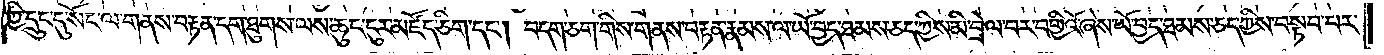ཀྱི་དྲུང་དུ་སོང་ལ་གནས་བརྟན་དག་ཐུགས་ལས་ཆུང་ངུར་མཛོད་ཅིག་དང༌། བདག་ཅག་གིས་གནས་བརྟན་རྣམས་ལ་ཡོ་བྱད་ཐམས་ཅད་ཀྱིས་མི་བྲེལ་བར་བགྱིའོ་ཞེས་ཡོ་བྱད་ཐམས་ཅད་ཀྱིས་བསྟབ་པར་
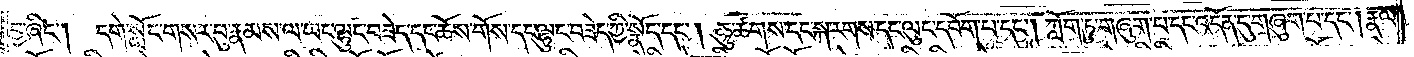བྱ་ཞིང༌། དགེ་སློང་གསར་བུ་རྣམས་ལ་ཡང་ལྷུང་བཟེད་དང་ཆོས་གོས་དང་ལྷུང་བཟེད་ཀྱི་སྣོད་དང༌། ཆུ་ཚགས་དང་སྐ་རགས་དང་ལུང་དབོག་པ་དང༌། ཀློག་ཏུ་གཞུག་པ་དང་འདོན་དུ་གཞུག་པ་དང༌། རྣལ་
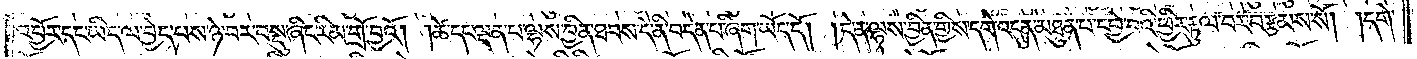འབྱོར་དང་ཡིད་ལ་བྱེད་པས་ཉེ་བར་བསྡུ་ཞིང་རིམ་གྲོ་བྱའོ། །ཚེ་དང་ལྡན་པ་ལྷས་བྱིན་ཐབས་དེ་ནི་བདེན་པ་ཞིག་ཡོད་དོ། །དེ་ན་ལྷས་བྱིན་གྱིས་དགེ་འདུན་མཐུན་པ་དབྱེ་བའི་ཕྱིར་རྟུལ་བར་བརྩམས་སོ། །དགེ་
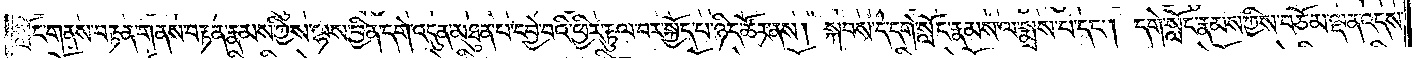སློང་གནས་བརྟན་གནས་བརྟན་རྣམས་ཀྱིས་ལྷས་བྱིན་དགེ་འདུན་མཐུན་པ་དབྱེ་བའི་ཕྱིར་རྟུལ་བར་སྐྱོད་པ་ཉིད་ཚོར་ནས། སྐབས་དེ་དགེ་སློང་རྣམས་ལ་སྨྲས་པ་དང༌། དགེ་སློང་རྣམས་ཀྱིས་བཅོམ་ལྡན་འདས་
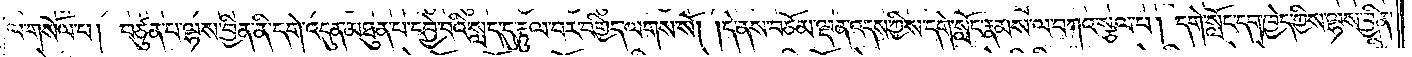ལ་གསོལ་པ། བཙུན་པ་ལྷས་བྱིན་ནི་དགེ་འདུན་མཐུན་པ་དབྱེ་བའི་སླད་དུ་རྟུལ་བར་བགྱིད་ལགས་སོ། །དེ་ནས་བཅོམ་ལྡན་འདས་ཀྱིས་དགེ་སློང་རྣམས་ལ་བཀའ་སྩལ་པ། དགེ་སློང་དག་ཁྱེད་ཀྱིས་ལྷས་བྱིན་
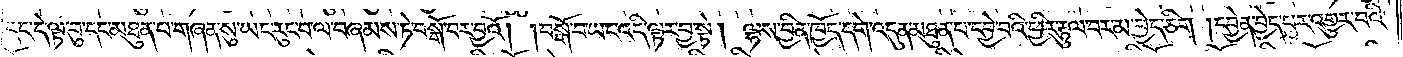དང་དེ་ལྟ་བུ་དང་མཐུན་པ་གཞན་སུ་ཡང་རུང་བ་ལ་བཞམས་ཏེ་བསྒོ་བར་བྱའོ། །བསྒོ་བ་ཡང་འདི་ལྟར་བྱ་སྟེ། ལྷས་བྱིན་ཁྱོད་དགེ་འདུན་མཐུན་པ་དབྱེ་བའི་ཕྱིར་རྟུལ་བར་མ་བྱེད་ཅིག །དབྱེན་བྱེད་པར་འགྱུར་བའི་
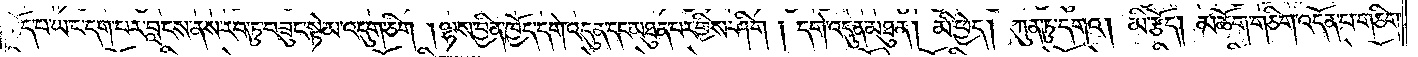རྩོད་པ་ཡང་དག་པར་བླངས་ནས་རབ་ཏུ་བཟུང་སྟེ་མ་འདུག་ཅིག །ལྷས་བྱིན་ཁྱོད་དགེ་འདུན་དང་མཐུན་པར་གྱིས་ཤིག །དགེ་འདུན་མཐུན། མི་ཕྱེད། ཀུན་ཏུ་དགའ། མི་རྩོད། མཆོག་གཅིག་འདོན་པ་གཅིག་
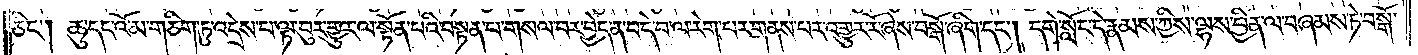ཅིང༌། ཆུ་དང་འོ་མ་གཅིག་ཏུ་འདྲེས་པ་ལྟ་བུར་གྱུར་ལ་སྟོན་པའི་བསྟན་པ་གསལ་བར་བྱེད་ན་བདེ་བ་ལ་རེག་པར་གནས་པར་འགྱུར་རོ་ཞེས་བསྒོ་ཞིག་དང༌། དགེ་སློང་དེ་རྣམས་ཀྱིས་ལྷས་བྱིན་ལ་བཞམས་ཏེ་བསྒོ་
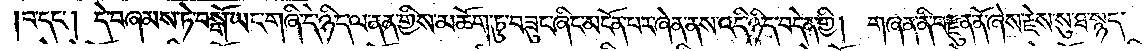བ་དང༌། དེ་བཞམས་ཏེ་བསྒོ་ཡང་གཞི་དེ་ཉིད་ལ་ནན་གྱིས་མཆོག་ཏུ་བཟུང་ཞིང་མངོན་པར་ཞེན་ནས་འདི་ཉིད་བདེན་གྱི། གཞན་ནི་བརྫུན་ནོ་ཞེས་རྗེས་སུ་ཐ་སྙད་
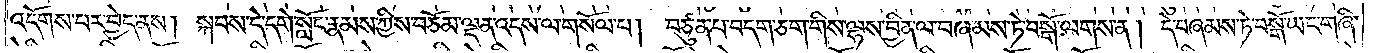འདོགས་པར་བྱེད་ནས། སྐབས་དེ་དགེ་སློང་རྣམས་ཀྱིས་བཅོམ་ལྡན་འདས་ལ་གསོལ་པ། བཙུན་པ་བདག་ཅག་གིས་ལྷས་བྱིན་ལ་བཞམས་ཏེ་བསྒོ་ལགས་ན། དེ་བཞམས་ཏེ་བསྒོ་ཡང་གཞི་
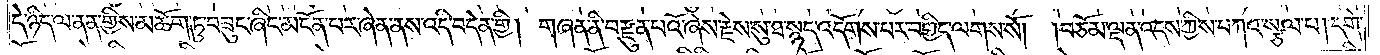དེ་ཉིད་ལ་ནན་གྱིས་མཆོག་ཏུ་བཟུང་ཞིང་མངོན་པར་ཞེན་ནས་འདི་བདེན་གྱི། གཞན་ནི་བརྫུན་པའོ་ཞེས་རྗེས་སུ་ཐ་སྙད་འདོགས་པར་བགྱིད་ལགས་སོ། །བཅོམ་ལྡན་འདས་ཀྱིས་བཀའ་སྩལ་པ། དགེ་
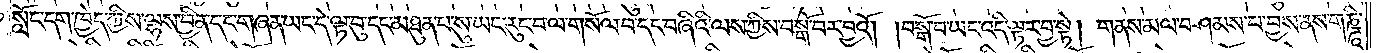སློང་དག་ཁྱེད་ཀྱིས་ལྷས་བྱིན་དང་གཞན་ཡང་དེ་ལྟ་བུ་དང་མཐུན་པ་སུ་ཡང་རུང་བ་ལ་གསོལ་བ་དང་བཞིའི་ལས་ཀྱིས་བསྒོ་བར་བྱའོ། །བསྒོ་བ་ཡང་འདི་ལྟར་བྱ་སྟེ། གནས་མལ་བཤམས་པ་བྱས་ནས་གཎྜཱི་
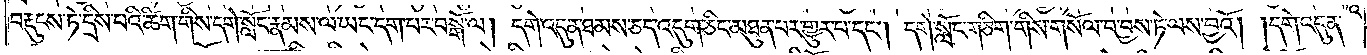བརྡུངས་ཏེ་དྲིས་པའི་ཚིག་གིས་དགེ་སློང་རྣམས་ལ་ཡང་དག་པར་བསྒོ་ལ། དགེ་འདུན་ཐམས་ཅད་འདུག་ཅིང་མཐུན་པར་གྱུར་པ་དང༌། དགེ་སློང་གཅིག་གིས་གསོལ་བ་བྱས་ཏེ་ལས་བྱའོ། །དགེ་འདུན་
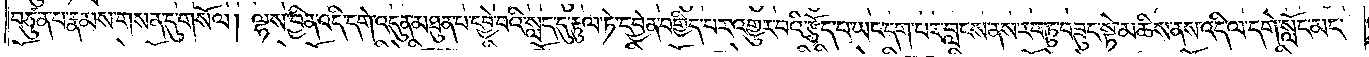བཙུན་པ་རྣམས་གསན་དུ་གསོལ། ལྷས་བྱིན་འདི་དགེ་འདུན་མཐུན་པ་དབྱེ་བའི་སླད་དུ་རྟུལ་ཏེ་དབྱེན་བགྱིད་པར་འགྱུར་བའི་རྩོད་པ་ཡང་དག་པར་བླངས་ནས་རབ་ཏུ་བཟུང་སྟེ་མཆིས་ནས་འདི་ལ་དགེ་སློང་མང་
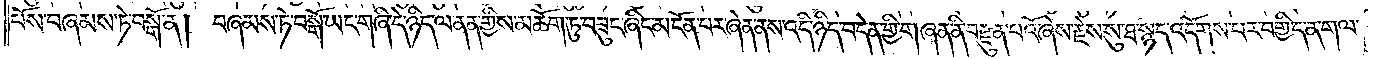པོས་བཞམས་ཏེ་བསྒོ་ན། བཞམས་ཏེ་བསྒོ་ཡང་གཞི་དེ་ཉིད་ལ་ནན་གྱིས་མཆོག་ཏུ་བཟུང་ཞིང་མངོན་པར་ཞེན་ནས་འདི་ཉིད་བདེན་གྱི་གཞན་ནི་བརྫུན་པའོ་ཞེས་རྗེས་སུ་ཐ་སྙད་འདོགས་པར་བགྱིད་ན་གལ་
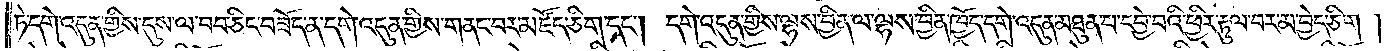ཏེ་དགེ་འདུན་གྱིས་དུས་ལ་བབ་ཅིང་བཟོད་ན་དགེ་འདུན་གྱིས་གནང་བར་མཛོད་ཅིག་དང༌། དགེ་འདུན་གྱིས་ལྷས་བྱིན་ལ་ལྷས་བྱིན་ཁྱོད་དགེ་འདུན་མཐུན་པ་དབྱེ་བའི་ཕྱིར་རྟུལ་བར་མ་བྱེད་ཅིག །
